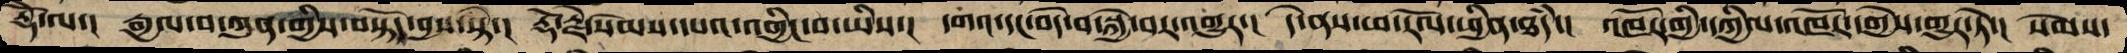རྡོེ་ལ་།  རྒྱལ་བ་ཀུན་གྱིས་བསྟོད་བྱས་སྟེ་།  རྡོ་རྗེ་སེམས་དཔའ་འགྱིང་བ་ཡིས་།  དགའ་དང་བདེ་བ་སྐྱེ་བར་འགྱུར་།  དེ་ནས་ཕ་རོལ་ཕྱིན་ཐཾད་།  འཁོར་གྱི་དཀྱིལ་འཁོར་དགྱེས་གྱུར་ཏེ་།  སེམས་
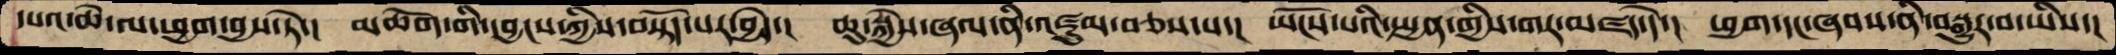དཔའ་ཆེ་ལ་ཕྱག་བྱས་ཏེ་།  མཆོག་གི་དབྱངས་ཀྱིས་བསྟོད་པར་བྱེད་།  ཆུ་སྐྱེས་ཞལ་ནི་འཛུམ་བཅས་པ་།  ཡོངས་པའིི་སྤྱན་གྱིས་གར་མཛད་དེ་།  ཕྱག་དང་ཞབས་ནི་བསྒྱུར་བ་ཡིས་།
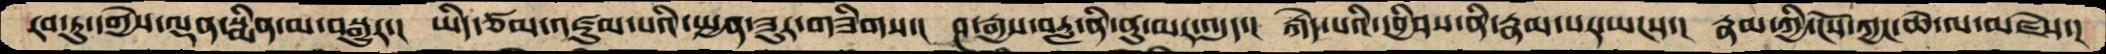རབ་ཏུ་དགྱེས་ལྡན་སྨིན་མ་བསྒྱུར་།  ཡིད་ཙམ་འཛུམ་པའི་སྤྱན་ཟུར་གཟིགས་།  ཤ་རྒྱས་བརླ་ནི་ནུ་མར་འདུད་།  རྐེད་པའི་དབྱིབས་ནི་རྣམ་པར་ཡངས་།  རྣམ་ཀྱི་ངོས་ཀྱང་ཆེ་ལ་མཛེས་།
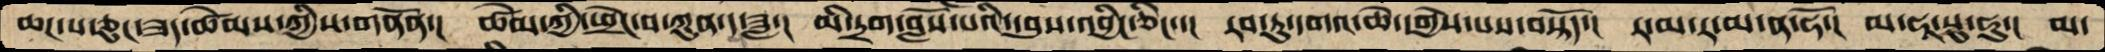ཆཌ་པ་ཅུང་ཟད་ཚེམས་ཀྱིས་གནོན་།  ཚེམ་ཀྱི་ཕྲེང་བ་ཀུན་ད་ཟླ་།   མི་དྲག་བློས་པའི་དབུས་འབྱིང་ཅིང་་།  རབ་ཏུ་དགའ་ཆེ་དགྱེས་པས་བསྟོད་།  ར་མ་ར་མ་ན་ཧོ་།  མ་ཧཱ་སུ་ཧུ་།  མ་
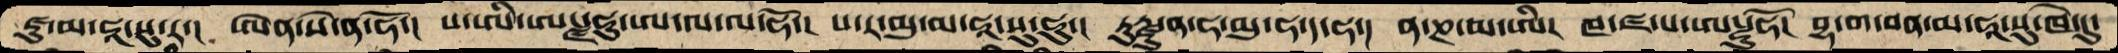ཛུ་མ་ཧཱ་སུ་ར་།  ཨེན་སེ་ན་ཧོ་།  པ་ཨི་ཨངྫ་ཧུ་ཨ་ལ་ལ་ཧོ་།  ས་ར་མུ་མ་ཧཱ་སུ་ཧུ་།   ཏུཏྫུ་ན་ཧ་མུ་ཧ་ད་ཧ་།  ན་ཎ་མ་ཨི།  ཁ་ཛ་ས་ཨངྫུ་ཧོ།  བྷ་ག་བན་མ་ཧཱ་སུ་ཁེ་དུ་
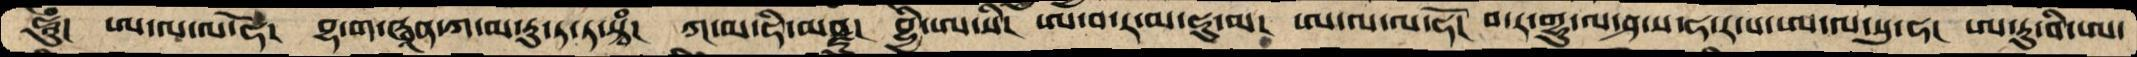ཧཱུཾ།   ཨ་ལ་ལ་ཧོ།  བྷ་ག་ཝཱན་ཀ་མ་རུ་ཏ་ཏ་སྟྭཾ།   ཀ་མ་ཧི་མནྫུ།  བྷྱི་ཨ་སི།  ཨ་བ་ར་མ་ཧུ་མ།  ཨ་ལ་ལ་ཧོ།  བ་ར་གྷུ་ལ་ཤ་ས་ཧ་ར་ས་ཨ་ལ་སུ་ཧ།  ཨ་རུ་བི་ཨ་
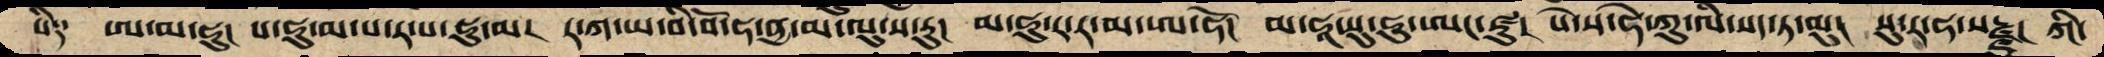སི༑  ཨ་མ་ཧུ།  ས་ཧུ་མ་པ་ཏ་པ་ཧུ་མ།  ར་ཀ་ཡ་བི་བོ་ཧ་ནྱ་མ་ལུ་ས་རུ།  མ་ཧུ་ར་ར་མ་ཨ་ཧོ།  མ་ཧཱ་སུ་ཧུ་ཨང་ཛུ།  སེ་ས་ཧེ་ཀུ་ལི་སད་ཏ་མུ།  སུ་ར་ཧ་སརྫྫུ།  ཀི་                                                                                                        རྫྫུ
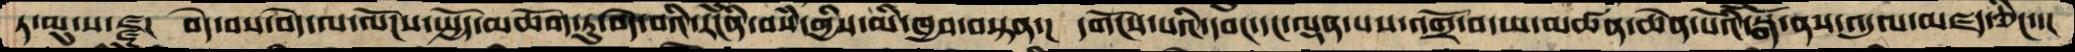ཏ་མུ་ས་ཛྫུ། བདེ་བས་བདེ་ལ་ལོངས་སྤྱོད་མཆོག་ཏུ་བདེ་བའི་རངནི་བསཾ་གྱིས་མི་ཁྱབ་བསྟན་། དགོངས་པའི་དབང་དང་ལྡན་པས་འགྲོ་བ་ཡ་མཚན་ཆེན་པོའི་སྒོ་ནས་འདུལ་མཛད་ཅིང་་།
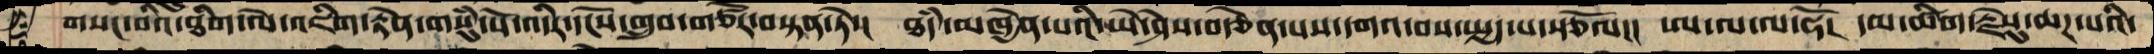གསང་བའི་ཐིག་ལེ་འཇིག་རྟེན་གསུཾ་པོ་འདིར་དངོས་གྲུབ་གཙོར་བསྟན་ཏེ་། ཐདཾ་མཁྱེན་པའི་ཡེ་ཤེས་བརྩེན་པས་དགའ་བས་སྤྱད་པ་སྩོལ།། ཨ་ལ་ལ་ལ་ཧོ། དམ་ཚིག་རྗེསུ་ཆཌ་པའི་
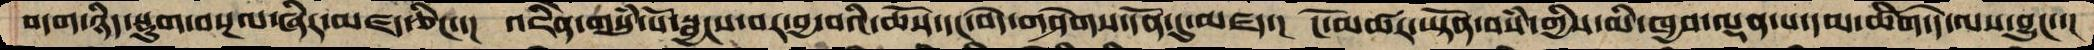བདག་ཉིད་སྡུག་བསྔལ་ཞིར་མཛད་ཅིང་་།  འཇིེན་གསུཾ་པོ་སྦྱངས་བར་བྱ་བའི་ཆོས་དང་བདེ་གཤེགས་དོན་དུ་མཛད་།  ངོ་མཚར་ཡྟོན་བསཾ་གྱིས་མི་ཁྱབ་ལྡན་པ་དམ་ཚིག་དེ་ལས་བྱུང་་།
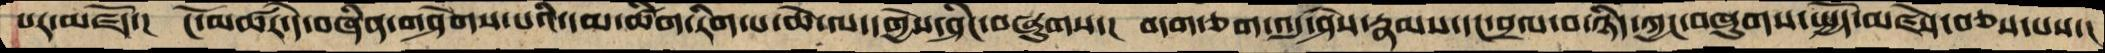པར་མཛོད་།  ངོ་མཚར་དེ་བཞིན་གཤེགས་པའི་དམ་ཚིག་རིག་པ་ཆེ་ལ་དགྱེས་ཤིང་བཞུགས་།  བདག་ཅག་འདུ་ཤེས་རྣམས་དང་བྲལ་བ་ཉིད་ཀྱང་བཞུགས་སྤྱོད་མཛེས་བཅས་པས་།
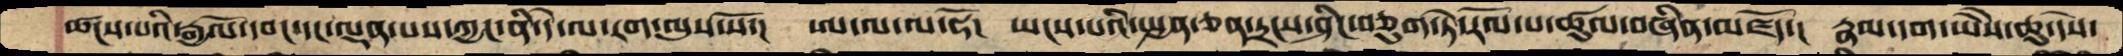ཚངས་པའི་རྒྱལོ་དབང་དང་ལྡན་པས་ཀྱང་ནི་དེ་ལ་རག་ལུས་སོ་།  ཨ་ལ་ལ་ཧོ།  ཡངས་པའི་སྤྱན་ཅན་དྲངས་ཤིང་བཅུག་ཏེ་རོལ་པ་ཚུལ་བཞིན་མཛོད་།  རྣམ་དག་ཡཻས་ཆུ་དེས་
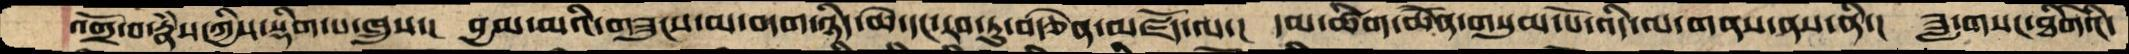འགྲོ་བ་རྣཾ་ཀྱིས་སྡིག་པ་ཁྲུས་།  བྱམ་མའི་གཟུངས་མ་བདག་ཉིད་ཆེ་དང་རབ་ཏུ་བརྩེན་མཛོད་ལ་།  དམ་ཚིག་ཆོེན་གསུམ་པོ་འདི་ལ་གནས་ནས་ནི་།  ཟླ་གསང་ཐིགེའི་
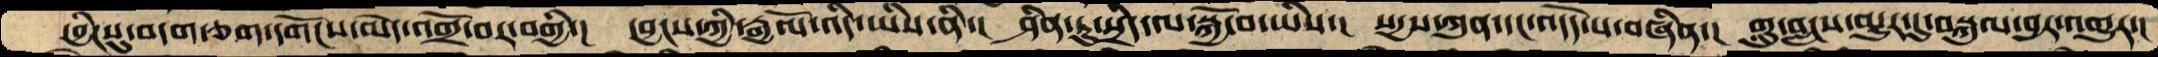དབྱིངསུ་བདག་ཅག་དགོངས་མེད་འགྲོ་བར་བགྱི་།  དབྱངས་ཀྱི་རྒྱལོ་འདི་ཡིས་ནི་།  ཤིན་ཏུ་སྲིད་ལ་སྐྱོ་བ་ཡིས་།  སདྱས་ཀུན་དང་འདོད་པ་བཞིན་།  གླུ་བླངས་མྱུར་དུ་བསྐུལ་བྱར་འགྱུར་།
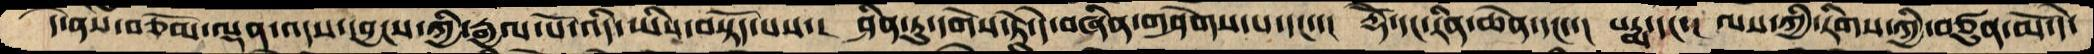དེ་ནས་བཅོམ་ལྡན་འདས་དབྱངས་ཀྱི་རྒྱལ་པོ་འདི་ཡིས་བསྟོད་པས་།  ཤིན་ཏུ་དགོས་ཏེ་དེ་བཞིན་གཤེགས་པ་དང་་།  རྡོེ་རིན་ཆེན་དང་་།  པདྨ་དང་། ལས་ཀྱི་རིགས་ཀྱི་བཙུན་མོ་དེ་
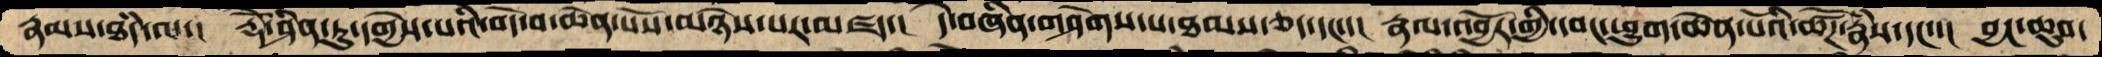རྣམས་ཐཾད་ལ་།  རྡོེ་ཤིན་ཏུ་དགྱེས་པའི་བདེ་བ་ཆེན་པོས་མཉེས་པར་མཛད་།  དེ་བཞིན་གཤེགས་པ་ཐམས་ཅད་དང་་།  རྣལ་འབྱོར་གྱི་དབང་ཕྱུག་ཆེན་པོའི་ཚོཌ་རྣཾས་དང་་།  བྱང་ཆུབ་
